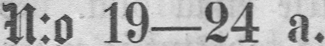N:o 19—24 a.
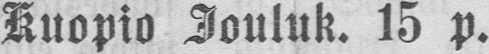Kuopio Jouluk. 15 p.
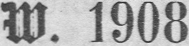W. 1908.
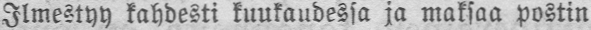Ilmestyy kahdesti kuukaudessa ja maksaa postin
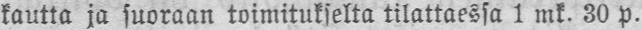kautta ja suoraan toimitukselta tilattaessa 1 mk. 30 p.
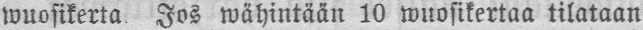wuosikerta Jos wähintään 10 wuosikertaa tilataan
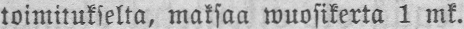toimitukselta, maksaa wuosikerta 1 mk.
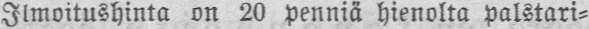Ilmoitushinta on 20 penniä hienolta palstari-
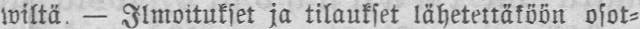wiltä. — Ilmoitukset ja tilaukset lähetettäköön osot-
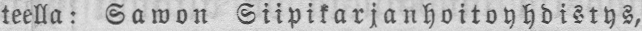teella: Sawon Siipikarjanhoitoyhdistys,
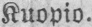Kuopio.
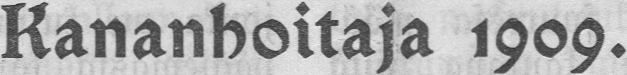Kananhoitaja 1909.
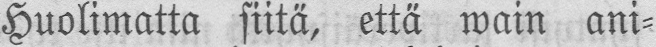Huolimatta siitä, että wain ani-
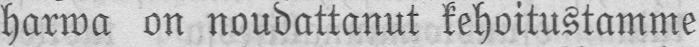harwa on noudattanut kehoitustamme
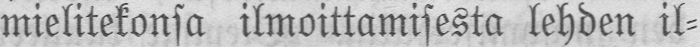mielitekonsa ilmoittamisesta lehden il-
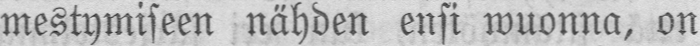mestymiseen nähden ensi wuonna, on
